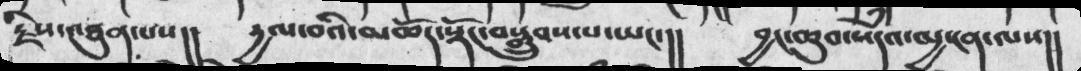རྗེས་འཐུན་པས།།  དྱལ་བའི་མཆོད་སྡོང་བསྒྲུབས་པ་ཡང་།།  བྱང་ཆུབ་སེཾདའ་མྱ་ངན་ལས།།
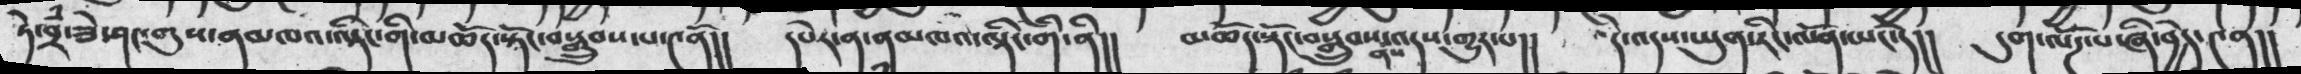ཏེ་བྲཾ་ཟེ་ཤང་གུས་ནམཁའ་ལྡིང་གི་མཆོད་སྟོང་བསྒྲུབས་པ་༤ནོ།།  དཔེར་ན་ནམཁའ་ལྡིང་གི་ནི།།  མཆོད་སྟོང་བསྒྲུབས་ནས་འདས་གྱུར་པ།།  དེ་འདས་ཡུན་རིང་ལོན་ཡང་དེ།།  དུག་ལོཌ་ལ་ཞི་བྱེད་༤ན།།
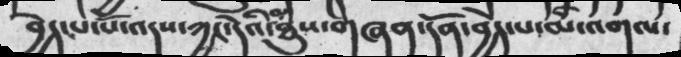བྱེད་པ་པོ་འདས་ཀྱང་དེའི་མཐུས་གཞན་དོན་བྱེད་པ་མི་འགལ་
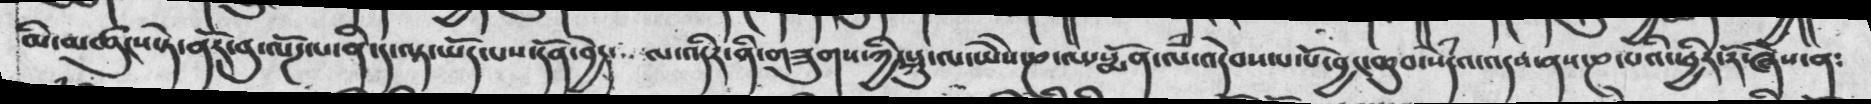མི་མཚུངས་ཏེ་ནོར་བུ་ལོཌ་པ་ནི་ད་ལྟ་ཡོད་པས་དོན་བྱེད་  ལ་འདིར་ནི་གཟུགས་ཀྱི་སྐུ་ལ་ཡཻས་ཎ་ལ་སྨོན་ལཾ་འདེབས་པ་པོ་བྱང་ཆུབ་སེཾདའ་འདས་ནས་ཎ་པའི་ཕྱིར་རོ་ཞེས་ན༴
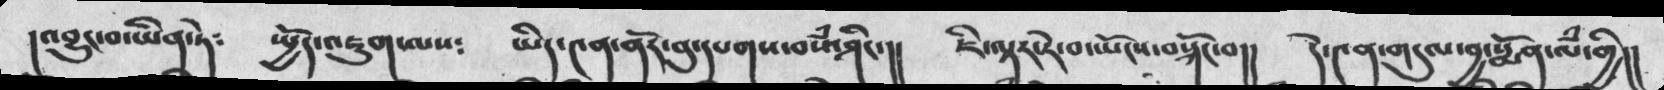།འབྱུང་བ་ཡིན་ཏེ༴  སྤྱོད་འཇུག་ལས༴  ཡིད་༤ན་ནོར་བུ་དཔགས་བསཾ་ཤིང་།།  ཇི་ལྟར་རེ་བ་ཡོངས་བསྐོང་བ།།  དེ་༤ན་གདུལ་བྱ་སྨོན་ལཾ་གྱི།།
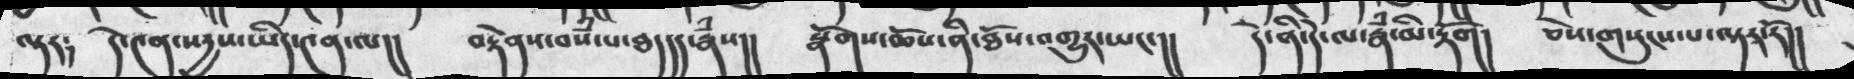ལྟར༴  དེ་༤ན་སདྱས་ཡིད་༤ན་ལ།།   བརྟེནས་བསཾ་པ་ཐ་དད་རྣཾས།།  སྣོགས་ཆོས་ནི་ཐོས་འགྱུར་ཡང་།།  དེ་ནི་དེ་ལ་རྣཾ་མི་རྟོག།  ཅེས་གསུངས་པ་ལྟར་རོ།།
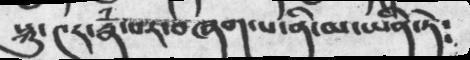སྐུ་༤ར་རྣཾ་པར་བཞག་པ་ནི་མ་ཡིན་ཏེ༴
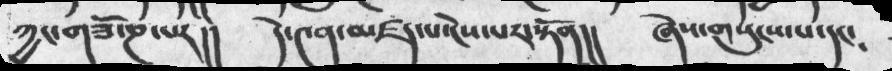ཀྱང་གཟོ་ཎ་པར།།   དེ་༤ན་མཛད་པ་ངེས་པར་སྟོན།།  ཞེས་གསུངས་པ་དང༴
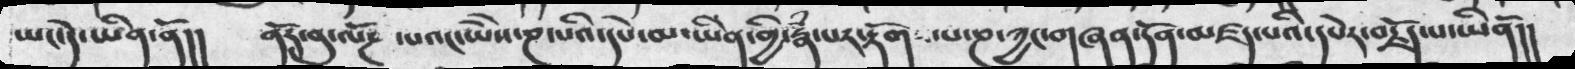ཡང་དེ་ཡིན་ནོ།།  ནོར་བུ་ལོཌ ་པའང་ཡཻས་ཎ་པའི་དཔེ་མ་ཡིན་གྱི་རྣཾ་པར་རྟོགས་པ་ཎ་ཀྱང་གཞན་དོན་མཛད་པའི་དཔེར་བརྗོད་པ་ཡིནོ།།
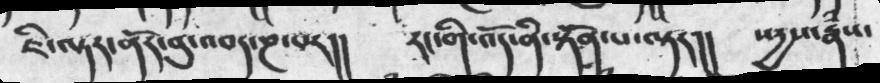ཇི་ལྟར་ནོར་བུ་འབད་ཎ་པར།།   རང་གི་འོད་ནི་སྟོན་པ་ལྟར།།   སདྱས་རྣཾས་
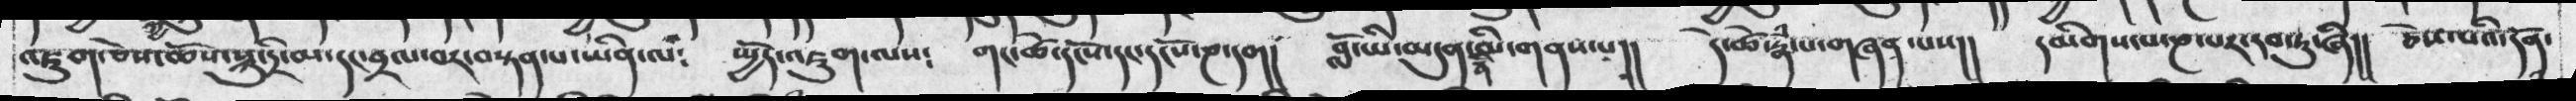འཇུག་ཅེས་ཆོས་སྐུ་དྲི་མ་དང་བྲལ་བར་བསྟན་པ་ཡིན་ལ༴   སྤྱོད་འཇུག་ལས༴  གང་ཚེ་དངོས་དང་དངོས་ཎ་དག།  བློ་ཡི་མདུན་ན་མི་གནས་པ།།  དེ་ཚེ་རྣཾ་པ་གཞན་པས།།  དམིགས་པ་ཎ་པར་རབ་ཏུ་ཞི།།  ཅེས་པའི་དོན་
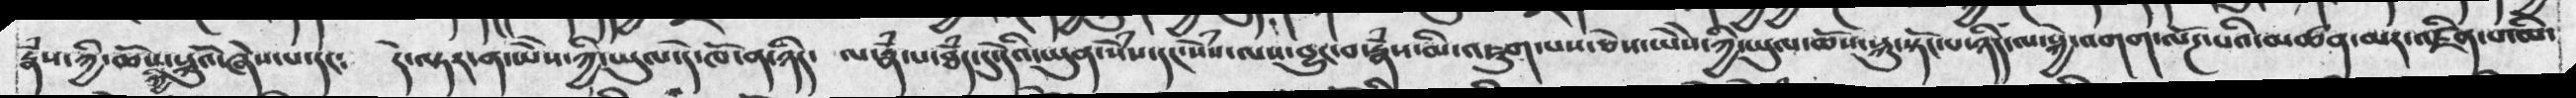རྣཾས་ཀྱི་ཆོས་ཀྱི་སྐུའོ་ཞེས་པ་དང༴  དེ་ལྟར་ན་ཡེེས་ཀྱི་ཡུལ་དེ་ཁོ་ན་ཉིད་  ལ་རྣཾ་པ་ཐཾད་དུ་དེའི་ཡུན་སེཾས་དང་སེཾས་ལས་བྱུང་བ་རྣཾས་མི་འཇུག་པས་ཅེས་ཡེེས་ཀྱི་ཡུལ་ཆོས་སྐུ་སྟོང་པ་ཉིད་ལ་སྐྱེ་འགག་ལོཌ་པའི་མཚན་མར་འཛིན་པ་ཡི་
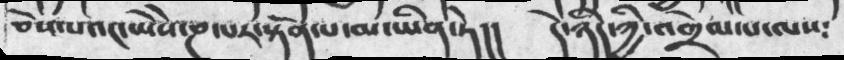ཅེས་པའང་ཡཻས་ཎ་པར་སྟོན་པ་མ་ཡིན་ཏེ།།  དེ་ཉིད་ཀྱི་འགྲེམ་པ་ལས༴
